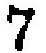7
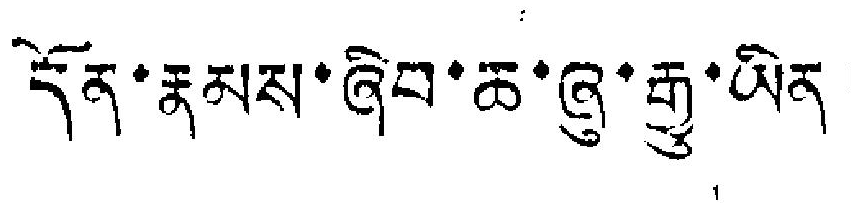དོན་རྣམས་ཞིབ་ཆ་ཞུ་རྒྱུ་ཡིན།
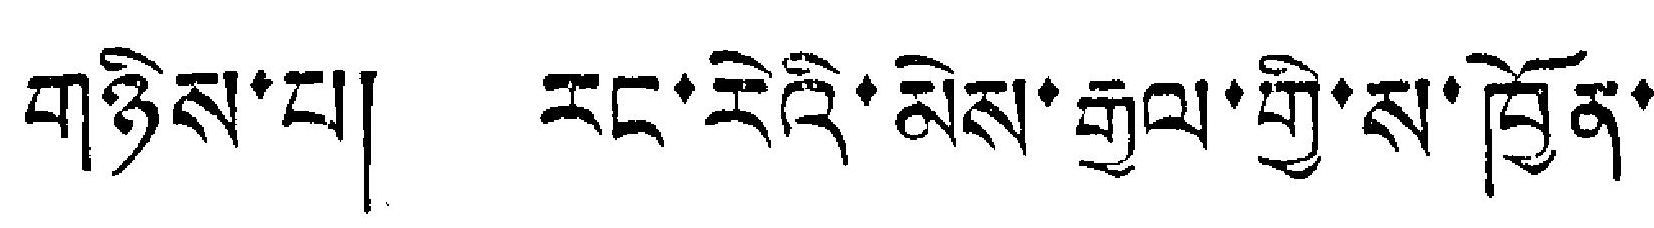གཉིས་པ། རང་རེའི་མེས་རྒྱལ་གྱི་ས་ཁྱོན་
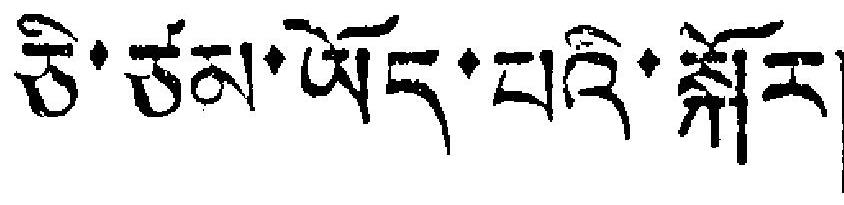ཅི་ཙམ་ཡོད་པའི་སྐོར།
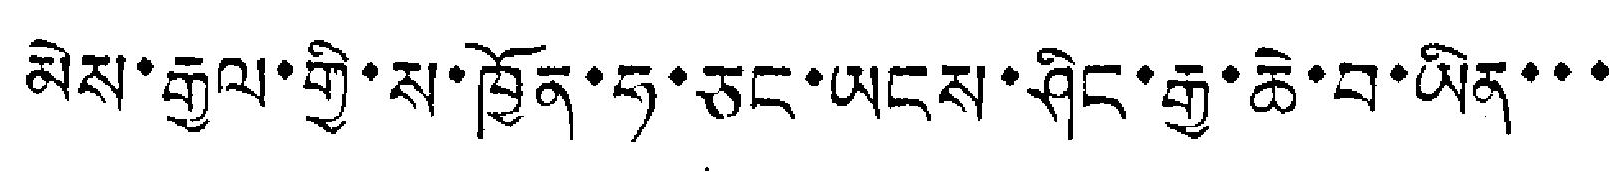མེས་རྒྱལ་གྱི་ས་ཁྱོན་ཧ་ཅང་ཡངས་ཤིང་རྒྱ་ཆེ་བ་ཡིན་་་
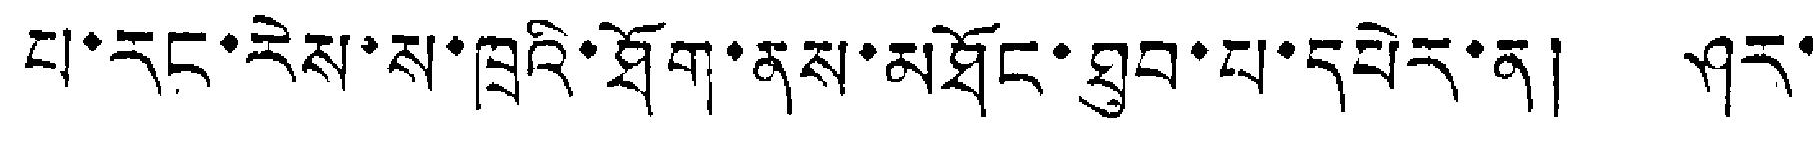པ་རང་རེས་ས་ཁྲའི་ཐོག་ནས་མཐོང་ཐུབ་པ་དཔེར་ན། ཤར་
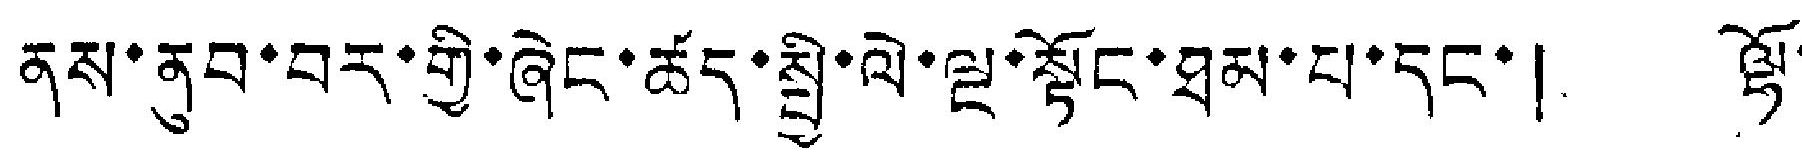ནས་ནུབ་བར་གྱི་ཞེང་ཚད་སྤྱི་ལེ་ལྔ་སྟོང་ཐམ་པ་དང་། ལྷོ་
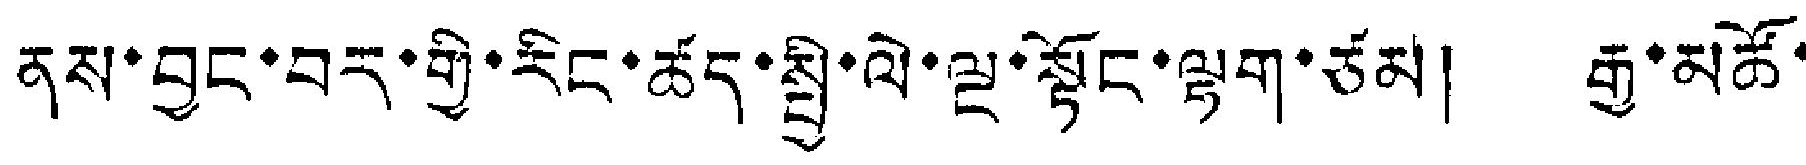ནས་བྱུང་བར་གྱི་རིང་ཚད་སྤྱི་ལེ་ལྔ་སྟོང་ལྷག་ཙམ། རྒྱ་མཚོ་
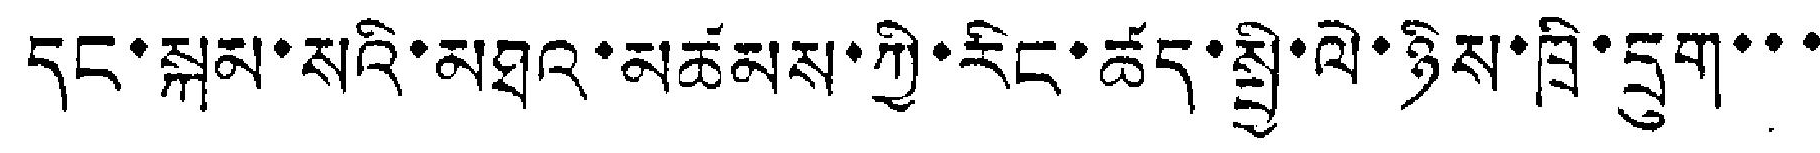དང་སྐམ་སའི་མཐའ་མཚམས་ཀྱི་རིང་ཚད་སྤྱི་ལེ་ཉིས་ཁྲི་དྲུག་་་
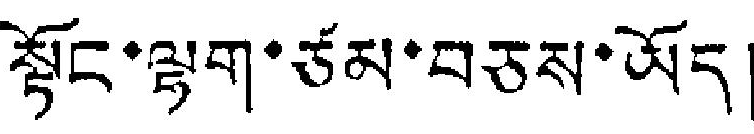སྟོང་ལྷག་ཙམ་བཅས་ཡོད།
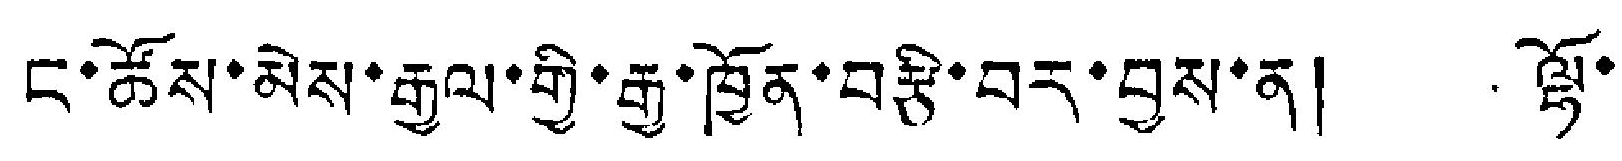ང་ཚོས་མེས་རྒྱལ་གྱི་རྒྱ་ཁྱོན་བརྩི་བར་བྱས་ན། ལྷོ་
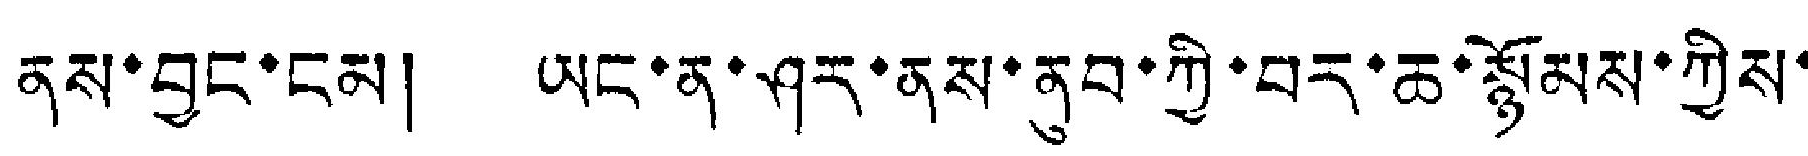ནས་བྱང་ངམ། ཡང་ན་ཤར་ནས་ནུབ་ཀྱི་བར་ཆ་སྙོམས་ཀྱིས་
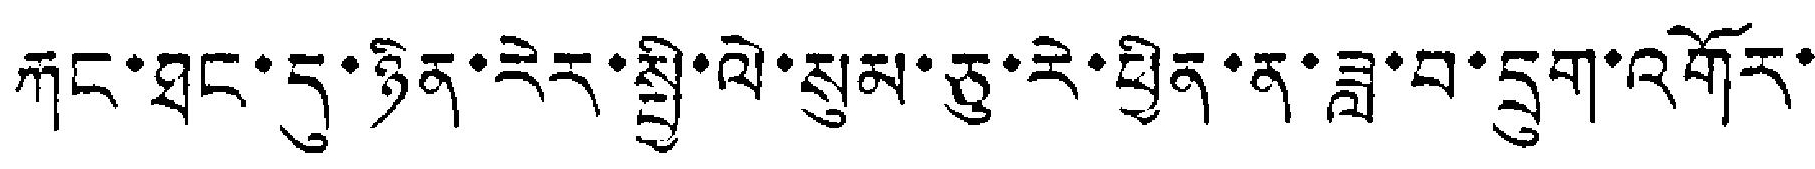རྐང་ཐང་དུ་ཉིན་རེར་སྤྱི་ལེ་སུམ་ཅུ་རེ་ཕྱིན་ན་ཟླ་བ་དྲུག་འགོར་
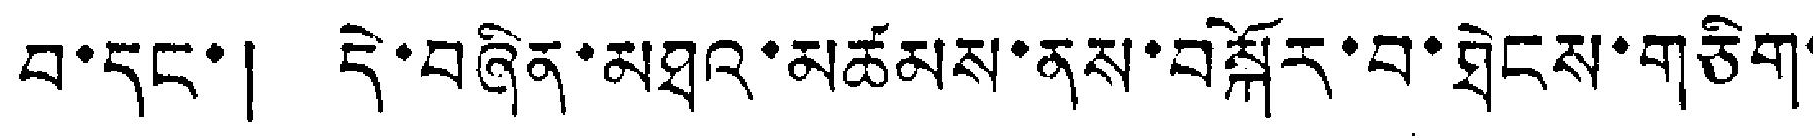བ་དང་། དེ་བཞིན་མཐའ་མཚམས་ནས་བསྐོར་བ་ཐེངས་གཅིག་
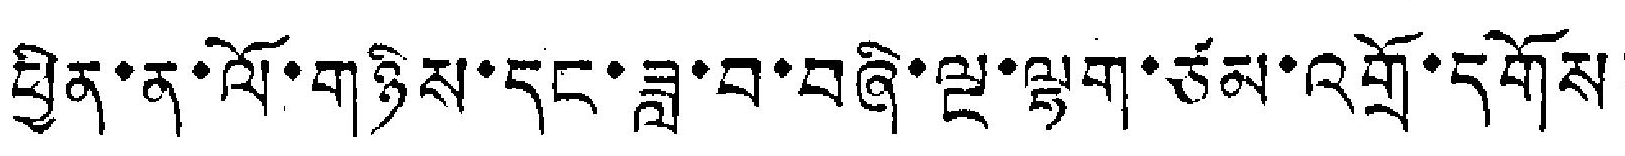ཕྱིན་ན་ལོ་གཉིས་དང་ཟླ་བ་བཞི་ལྔ་ལྷག་ཙམ་འགྲོ་དགོས།
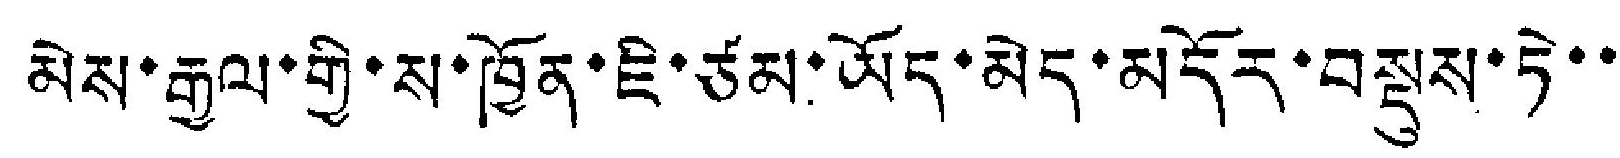མེས་རྒྱལ་གྱི་ས་ཁྱོན་ཇི་ཙམ་ཡོད་མེད་མདོར་བསྡུས་ཏེ་་
